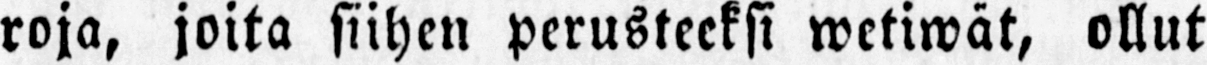roja, joita siihen perusteeksi wetiwät, ollut
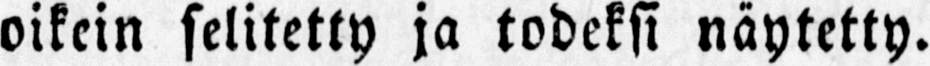oikein selitetty ja todeksi näytetty.
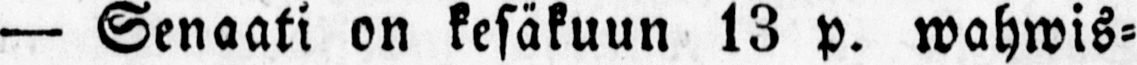— Senaati on kesäkuun 13 p. wahwis-
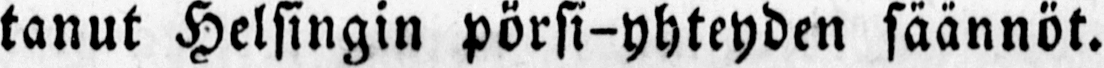tanut Helsingin pörsi-yhteyden säännöt.
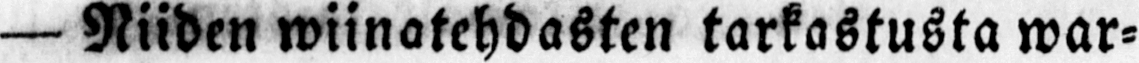— Niiden wiinatehdasten tarkastusta war-
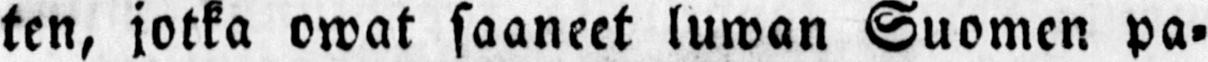ten, jotka owat saaneet luwan Suomen pa-
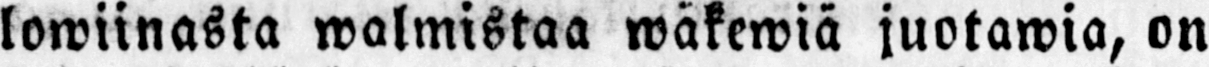lowiinasta walmistaa wäkewiä juotawia, on
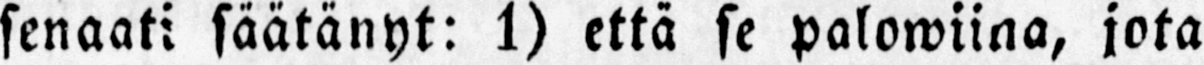senaati säätänyt: 1) että se palowiina, jota
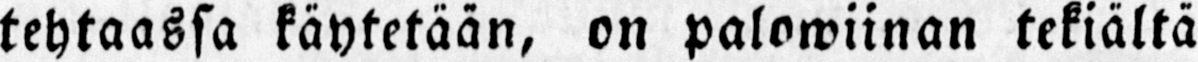tehtaassa käytetään, on palowiinan tekiältä
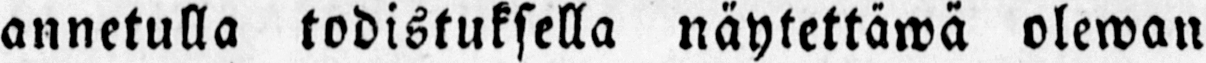annetulla todistuksella näytettäwä olewan
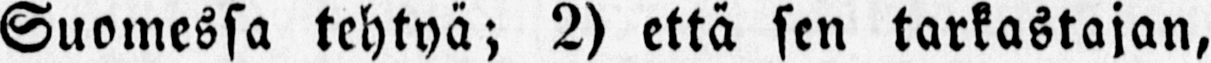Suomessa tehtyä; 2) että sen tarkastajan,
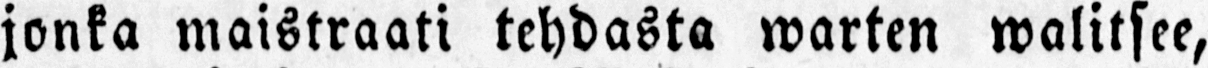jonka maistraati tehdasta warten walitsee,
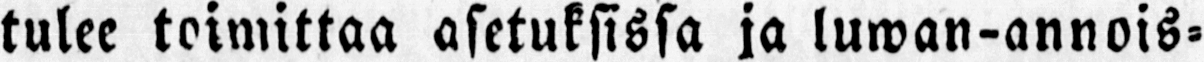tulee toimittaa asetuksissa ja luwan-annois-
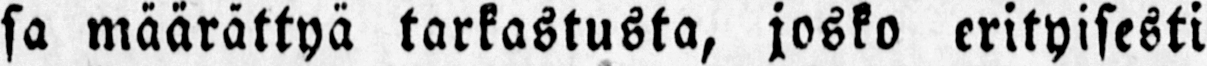sa määrättyä tarkastusta, josko erityisesti
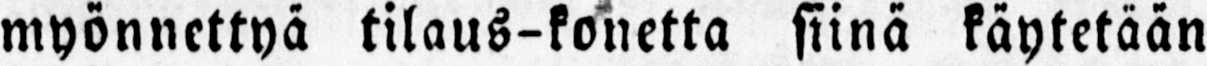myönnettyä tilaus-konetta siinä käytetään
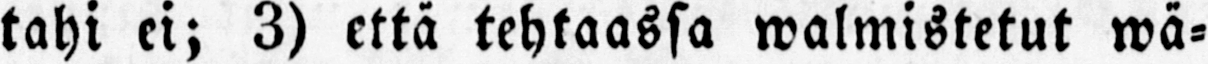tahi ei; 3) että tehtaassa walmistetut wä-
